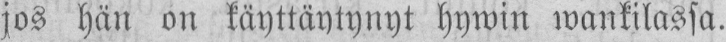jos hän on käyttäytynyt hywin wankilassa.
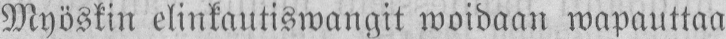Myöskin elinkautiswangit woidaan wapauttaa
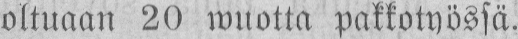oltuaan 20 wuotta pakkotyössä.
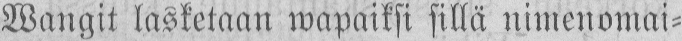Wangit lasketaan wapaiksi sillä nimenomai-
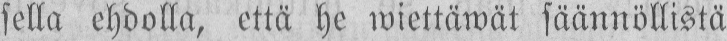sella ehdolla, että he wiettäwät säännöllistä
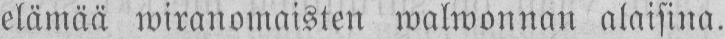elämää wiranomaisten walwonnan alaisina.
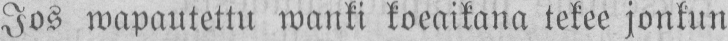Jos wapautettu wanki koeaikana tekee jonkun
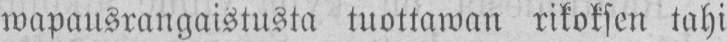wapausrangaistusta tuottawan rikoksen tahi
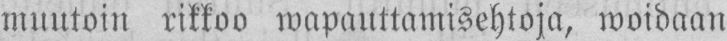muutoin rikkoo wapauttamisehtoja, woidaan
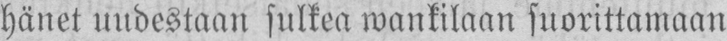hänet uudestaan sulkea wankilaan suorittamaan
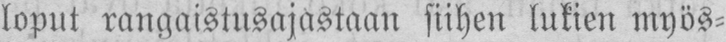loput rangaistusajästaan siihen lukien myös-
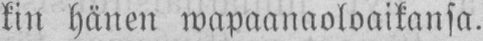kin hänen wapaanaoloaikansa.
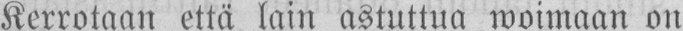Kerrotaan että lain astuttua woimaan on
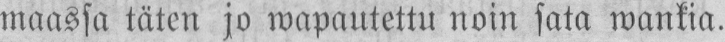maassa täten jo wapautettu noin sata wankia.
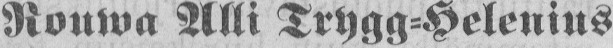— Rouwa Alli Trygg-Helenius
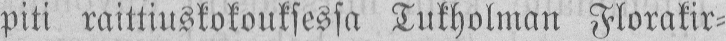piti raittiuskokouksessa Tukholman Florakir-
